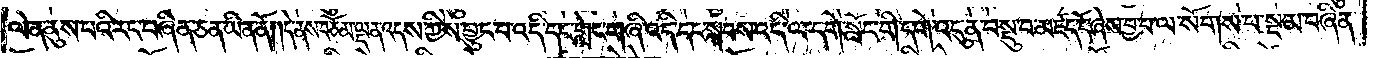ལེན་ནུས་པའི་རང་བཞིན་ཅན་ཡིན་ནོ༎དེ་ནས་བཅོམ་ལྡན་འདས་ཀྱིས་བྱུང་བ་འདི་དང་གླེང་གཞི་འདི་དང་སྐབས་དི་ལ་དགེ་སློང་གི་དགེ་འདུན་བསྡུ་བ་མཛད་དོ་ཞེས་བྱ་བ་ལ་སོས་པ་སྔ་མ་བཞིན་
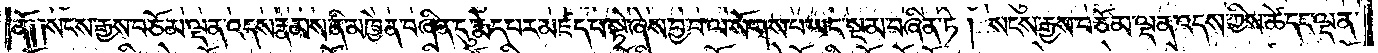ནོ། །སངས་རྒྱས་བཅོམ་ལྡན་འདས་རྣམས་ནི་མཁྱེན་བཞིན་དུ་རྨེད་པར་མཛད་པ་སྟེ་ཞེས་བྱ་བ་ལ་སོགས་པ་ཡང་སྔ་མ་བཞིན་ཏེ། སངས་རྒྱས་བཅོམ་ལྡན་འདས་ཀྱིས་ཚེ་དང་ལྡན་
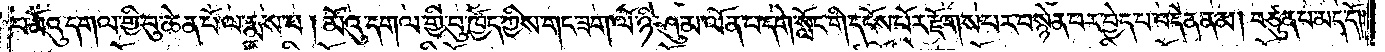པ་མོའུ་དགལ་གྱི་བུ་ཆེན་པོ་ལ་རྨས་པ། མོའུ་དགལ་གྱི་བུ་ཁྱོད་ཀྱིས་གང་ཟག་ལོ་ཉི་ཤུ་མ་ལོན་པ་དགེ་སློང་གི་དངོས་པོར་རྫོགས་པར་བསྙེན་པར་བྱེད་པ་བདེན་ནམ། བཙུན་པ་མད་དོ། །
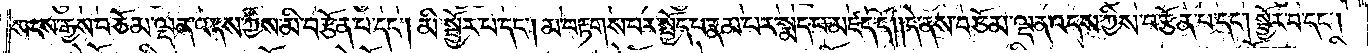སངས་རྒྱས་བཅོམ་ལྡན་འདས་ཀྱིས་མི་བརྩོན་པ་དང༌། མི་སྦྱོར་བ་དང༌། མ་བརྟགས་པར་སྤྱོད་པ་རྣམ་པར་སྨད་པ་མཛད་དོ། །དེ་ནས་བཅོམ་ལྡན་འདས་ཀྱིས་བརྩོན་པ་དང༌། སྦྱོར་བ་དང༌།
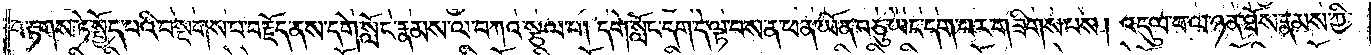བརྟགས་ཏེ་སྤྱོད་པའི་བསྔགས་པ་བརྗོད་ནས་དགེ་སློང་རྣམས་ལ་བཀའ་སྩལ་པ། དགེ་སློང་དག་དེ་ལྟ་བས་ན་ཕན་ཡོན་བཅུ་ཡང་དག་པར་གཟིགས་པས། འདུལ་བ་ལ་ཉན་ཐོས་རྣམས་ཀྱི་
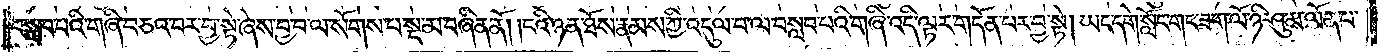བསླབ་པའི་གཞི་བཅའ་བར་བྱ་སྟེ་ཞེས་བྱ་བ་ལ་སོགས་པ་སྔ་མ་བཞིན་ནོ། །ངའི་ཉན་ཐོས་རྣམས་ཀྱི་འདུལ་བ་ལ་བསླབ་པའི་གཞི་འདི་ལྟར་གདོན་པར་བྱ་སྟེ། ཡང་དགེ་སློང་གང་ཟག་ལོ་ཉི་ཤུ་མ་ལོན་པ་
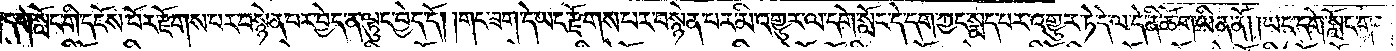དགེ་སློང་གི་དངོས་པོར་རྫོགས་པར་བསྙེན་པར་བྱེད་ན་ལྟུང་བྱེད་དོ། །གང་ཟག་དེ་ཡང་རྫོགས་པར་བསྙེན་པར་མི་འགྱུར་ལ་དགེ་སློང་དེ་དག་ཀྱང་སྨད་པར་འགྱུར་ཏེ་དེ་ལ་དེ་ནི་ཆོ་ག་ཡིན་ནོ། །ཡང་དགེ་སློང་གང་
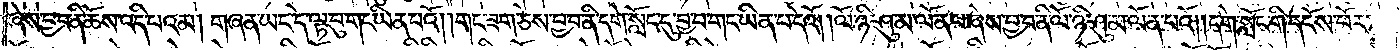ཞེས་བྱ་བ་ནི་ཆོས་འདི་པའམ། གཞན་ཡང་དེ་ལྟ་བུ་གང་ཡིན་པའོ། །གང་ཟག་ཅེས་བྱ་བ་ནི་དགེ་སློང་བྱ་བ་གང་ཡིན་པ་དེའོ། །ལོ་ཉི་ཤུ་མ་ལོན་པ་ཞེས་བྱ་བ་ནི་ལོ་ཉི་ཤུ་མ་ལོན་པའོ། །དགེ་སློང་གི་དངོས་པོར་
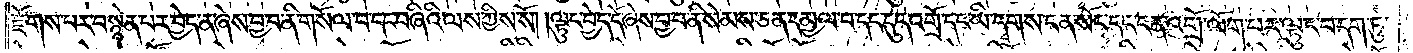རྫོགས་པར་བསྙེན་པར་བྱེད་ན་ཞེས་བྱ་བ་ནི་གསོལ་བ་དང་བཞིའི་ལས་ཀྱིས་སོ། །ལྟུང་བྱེད་དོ་ཞེས་བྱ་བ་ནི་སེམས་ཅན་དམྱལ་བ་དང་དུད་འགྲོ་དང་ཡི་དྭགས་ངན་སོང་དང་ངན་འགྲོ་ལོག་པར་ལྟུང་བ་དག་ཏུ་
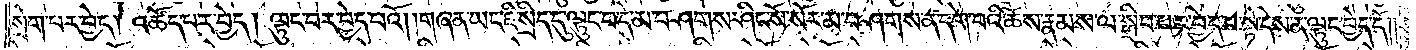སྲེག་པར་བྱེད། འཚོད་པར་བྱེད། ལྟུང་བར་བྱེད་པའོ། །གཞན་ཡང་ཇི་སྲིད་དུ་ལྟུང་བ་དེ་མ་བཤགས་ཤིང་སོ་སོར་མ་བཤགས་ན་དགེ་བའི་ཆོས་རྣམས་ལ་སྒྲིབ་པར་བྱེད་པ་སྟེ་དེས་ན་ལྟུང་བྱེད་དོ། །
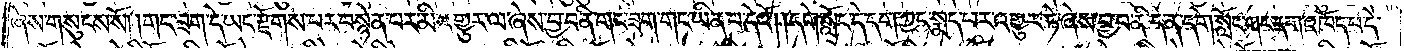ཞེས་གསུངས་སོ། །གང་ཟག་དེ་ཡང་རྫོགས་པར་བསྙེན་པར་མི་འགྱུར་ལ་ཞེས་བྱ་བ་ནི་གང་ཟག་གང་ཡིན་པ་དེའོ། །དགེ་སློང་དེ་དག་ཀྱང་སྨད་པར་འགྱུར་ཏེ་ཞེས་བྱ་བ་ནི་དེ་ན་དགེ་སློང་གང་དག་འཁོད་པ་དེ་
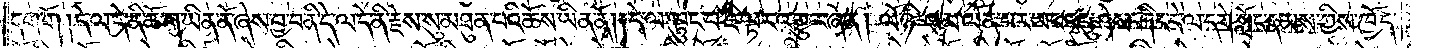དག་གོ །དེ་ལ་ནི་དེ་ནི་ག་ཡིན་ནོ་ཞེས་བྱ་བ་ནི་དེ་ལ་དེ་ནི་རྗེས་སུ་མཐུན་པའི་ཆོས་ཡིན་ནོ། །དེ་ལ་ལྟུང་བ་ཇི་ལྟར་འགྱུར་ཞེ་ན། ལོ་ཉི་ཤུ་མ་ལོན་པར་ཡང་འདུ་ཤེས་ཤིང་དེ་ལ་དགེ་སློང་རྣམས་ཀྱིས་ཁྱོད་
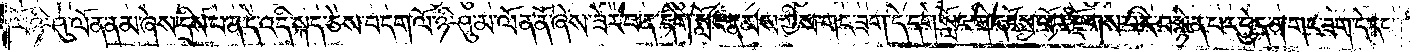འོ་ཉི་ཤུ་ལོན་ནམ་ཞེས་དྲིས་པ་ན་དེ་འདི་སྐད་ཅེས་བདག་ལོན་ཉི་ཤུ་མ་ལོན་ནོ་ཞེས་ཟེར་བ་ན་དགེ་སློང་རྣམས་ཀྱིས་གང་ཟག་དེ་དགེ་སློང་གི་དངོས་པོར་རྫོགས་པར་བསྙེན་པར་བྱེད་ན་གང་ཟག་དེ་དང་
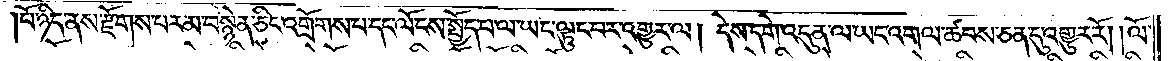པོ་ཉིད་ནས་རྫོགས་པར་མ་བསྙེན་ཅིང་འགྲོགས་པ་དང་ལོངས་སྤྱོད་པ་ལ་ཡང་ལྟུང་བར་འགྱུར་ལ། དེས་དགེ་འདུན་ལ་ཡང་འགལ་ཚབས་ཅན་དུ་འགྱུར་རོ། །ལོ་
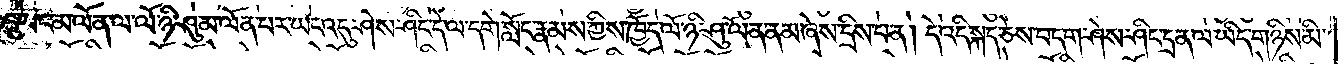ཤུ་ཡང་མ་ལོན་ལ་ལོ་ཉི་ཤུ་མ་ལོན་པར་ཡང་འདུ་ཤེས་ཤིང་དེ་དགེ་སློང་རྣམས་ཀྱིས་ཁྱོད་ལོ་ཉི་ཤུ་ལོན་ནམ་ཞེས་དྲིས་པ་ན། དེ་འདི་སྐད་ཅེས་བདག་ཤེས་ཤིང་དྲན་ལ་ཡིད་གཉིས་མི་
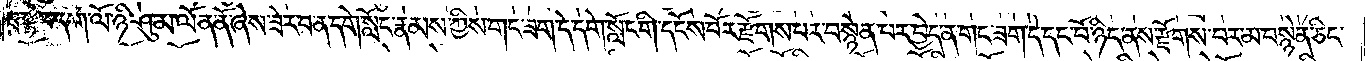ཟ་སྟེ་བདག་ལོ་ཉི་ཤུ་མ་ལོན་ནོ་ཞེས་ཟེ་བ་ན་དགེ་སློང་རྣམས་ཀྱི་གང་ཟག་དེ་དགེ་སློང་གི་དངོས་པོར་རྫོགས་པར་བསྙེན་པར་བྱེད་ན་གང་ཟག་དེ་དང་པོ་ཉིད་ནས་རྫོགས་པར་མ་བསྙེན་ཅིང་
